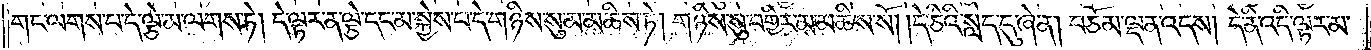གང་ལགས་པ་དེ་ལྕེ་མ་ལགས་ཏེ། དེ་ལྟར་ན་ལྕེ་དང་མ་སྐྱེས་པ་དེ་གཉིས་སུ་མ་མཆིས་ཏེ། གཉིས་སུ་བགྱིར་མ་མཆིས་སོ། །དེ་ཅིའི་སླད་དུ་ཞེ་ན། བཅོམ་ལྡན་འདས། དེ་ནི་འདི་ལྟར་མ་
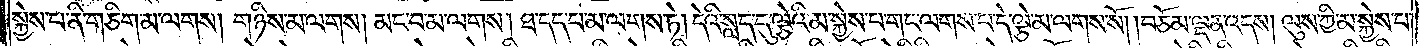སྐྱེས་པ་ནི་གཅིག་མ་ལགས། གཉིས་མ་ལགས། མང་བ་མ་ལགས། ཐ་དད་པ་མ་ལགས་ཏེ། དེའི་སླད་དུ་ལྕེའི་མ་སྐྱེས་པ་གང་ལགས་པ་དེ་ལྕེ་མ་ལགས་སོ། བཅོམ་ལྡན་འདས། ལུས་ཀྱི་མ་སྐྱེས་པ་
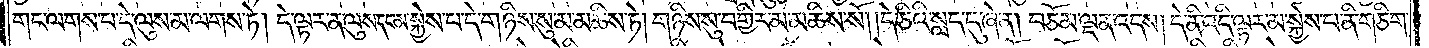གང་ལགས་པ་དེ་ལུས་མ་ལགས་ཏེ། དེ་ལྟར་ན་ལུས་དང་མ་སྐྱེས་པ་དེ་གཉིས་སུ་མ་མཆིས་ཏེ། གཉིས་སུ་བགྱིར་མ་མཆིས་སོ། །དེ་ཅིའི་སླད་དུ་ཞེ་ན། བཅོམ་ལྡན་འདས། དེ་ནི་འདི་ལྟར་མ་སྐྱེས་པ་ནི་གཅིག་
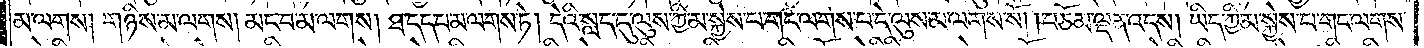མ་ལགས། གཉིས་མ་ལགས། མང་བ་མ་ལགས། ཐ་དད་པ་མ་ལགས་ཏེ། དེའི་སླད་དུ་ལུས་ཀྱི་མ་སྐྱེས་པ་གང་ལགས་པ་དེ་ལུས་མ་ལགས་སོ། །བཅོམ་ལྡན་འདས། ཡིད་ཀྱི་མ་སྐྱེས་པ་གང་ལགས་
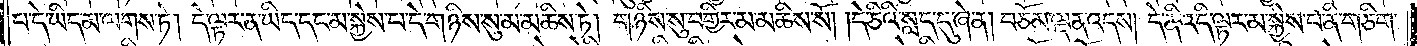པ་དེ་ཡིད་མ་ལགས་ཏེ། དེ་ལྟར་ན་ཡིད་དང་མ་སྐྱེས་པ་དེ་གཉིས་སུ་མ་མཆིས་ཏེ། གཉིས་སུ་བགྱིར་མ་མཆིས་སོ། །དེ་ཅིའི་སླད་དུ་ཞེ་ན། བཅོམ་ལྡན་འདས། དེ་ནི་འདི་ལྟར་མ་སྐྱེས་པ་ནི་གཅིག་
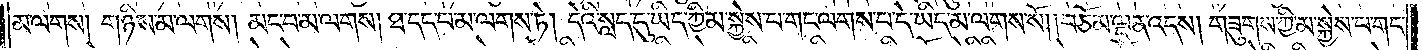མ་ལགས། གཉིས་མ་ལགས། མང་བ་མ་ལགས། ཐ་དད་པ་མ་ལགས་ཏེ། དེའི་སླད་དུ་ཡིད་ཀྱི་མ་སྐྱེས་པ་གང་ལགས་པ་དེ་ཡིད་མ་ལགས་སོ། །བཅོམ་ལྡན་འདས། གཟུགས་ཀྱི་མ་སྐྱེས་པ་གང་
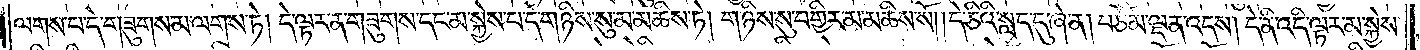ལགས་པ་དེ་གཟུགས་མ་ལགས་ཏེ། དེ་ལྟར་ན་གཟུགས་དང་མ་སྐྱེས་པ་དེ་གཉིས་སུ་མ་མཆིས་ཏེ། གཉིས་སུ་བགྱིར་མ་མཆིས་སོ། །དེ་ཅིའི་སླད་དུ་ཞེ་ན། བཅོམ་ལྡན་འདས། དེ་ནི་འདི་ལྟར་མ་སྐྱེས་
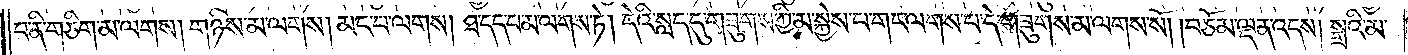པ་ནི་གཅིག་མ་ལགས། གཉིས་མ་ལགས། མང་བ་མ་ལགས། ཐ་དད་པ་མ་ལགས་ཏེ། དེའི་སླད་དུ་གཟུགས་ཀྱི་མ་སྐྱེས་པ་གང་ལགས་པ་དེ་གཟུགས་མ་ལགས་སོ། །བཅོམ་ལྡན་འདས། སྒྲའི་མ་
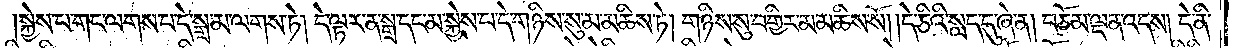སྐྱེས་པ་གང་ལགས་པ་དེ་སྒྲ་མ་ལགས་ཏེ། དེ་ལྟར་ན་སྒྲ་དང་མ་སྐྱེས་པ་དེ་གཉིས་སུ་མ་མཆིས་ཏེ། གཉིས་སུ་བགྱིར་མ་མཆིས་སོ། །དེ་ཅིའི་སླད་དུ་ཞེ་ན། བཅོམ་ལྡན་འདས། དེ་ནི་
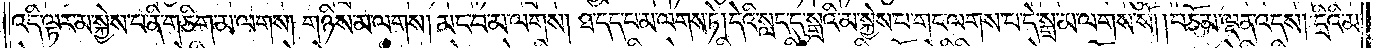འདི་ལྟར་མ་སྐྱེས་པ་ནི་གཅིག་མ་ལགས། གཉིས་མ་ལགས། མང་བ་ལགས། ཐ་དད་པ་མ་ལགས་ཏེ། དེའི་སླད་དུ་སྒྲའི་མ་སྐྱེ་པ་གང་ལགས་པ་དེ་སྒྲ་མ་ལགས་སོ། །བཅོམ་ལྡན་འདས། དྲིའི་མ་
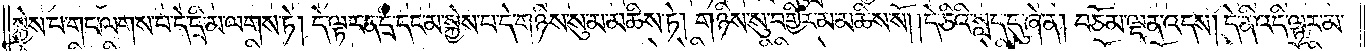སྐྱེས་པ་གང་ལགས་པ་དེ་དྲི་མ་ལགས་ཏེ། དེ་ལྟར་ན་དྲི་དང་མ་སྐྱེས་པ་དེ་གཉིས་སུ་མ་མཆིས་ཏེ། གཉིས་སུ་བགྱིར་མ་མཆིས་སོ། དེ་ཅིའི་སླད་དུ་ཞེ་ན། བཅོམ་ལྡན་འདས། དེ་ནི་འདི་ལྟར་མ་
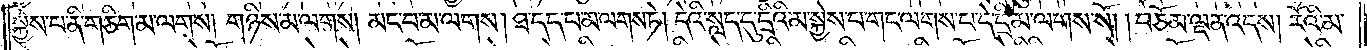སྐྱེས་པ་ནི་གཅིག་མ་ལགས། གཉིས་མ་ལགས། མང་བ་མ་ལགས། ཐ་དད་པ་མ་ལགས་ཏེ། དེའི་སླད་དུ་དྲིའི་མ་སྐྱེས་པ་གང་ལགས་པ་དེ་དྲི་མ་ལགས་སོ། །བཅོམ་ལྡན་འདས། རོའི་མ་
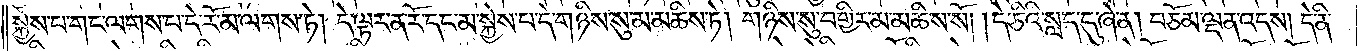སྐྱེས་པ་གང་ལགས་པ་དྲི་མ་ལགས་ཏེ། དེ་ལྟར་ན་དྲི་དང་མ་སྐྱེས་པ་དེ་གཉིས་སུ་མ་མཆིས་ཏེ། གཉིས་སུ་བགྱིར་མ་མཆིས་སོ། །དེ་ཅིའི་སླད་དུ་ཞེ་ན། བཅོམ་ལྡན་འདས། དེ་ནི་
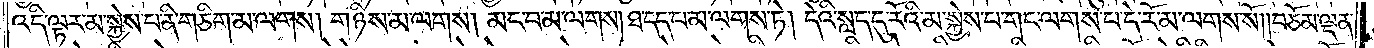འདི་ལྟར་མ་སྐྱེས་པ་ནི་གཅིག་མ་ལགས། གཉིས་མ་ལགས། མང་བ་མ་ལགས། ཐ་དད་པ་མ་ལགས་ཏེ། དེའི་སླད་དུ་དྲིའི་མ་སྐྱེས་པ་གང་ལགས་པ་དྲི་མ་ལགས་སོ། བཅོམ་ལྡན་
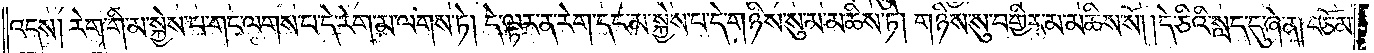འདས། རེག་གི་མ་སྐྱེས་པ་གང་ལགས་པ་དེ་རེག་མ་ལགས་ཏེ། དེ་ལྟར་ན་རེག་དང་མ་སྐྱེས་པ་དེ་གཉིས་སུ་མ་མཆིས་ཏེ། གཉིས་སུ་བགྱིར་མ་མཆིས་སོ། །དེ་ཅིའི་སླད་དུ་ཞེ་ན། བཅོམ་
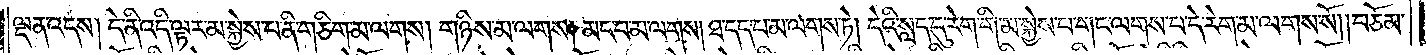ལྡན་འདས། དེ་ནི་འདི་ལྟར་མ་སྐྱེས་པ་ནི་གཅིག་མ་ལགས། གཉིས་མ་ལགས། མང་བ་མ་ལགས། ཐ་དད་པ་མ་ལགས་ཏེ། དེའི་སླད་དུ་རེག་གི་མ་སྐྱེས་པ་གང་ལགས་པ་དེ་རེག་མ་ལགས་སོ། བཅོམ་
